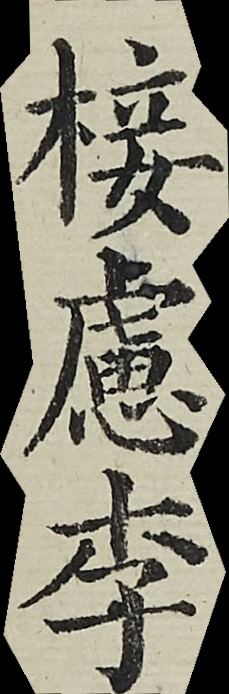椄慮李
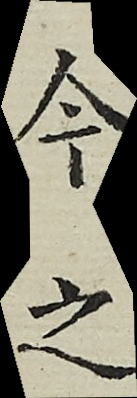今之
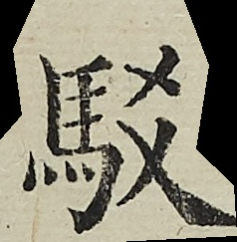駁
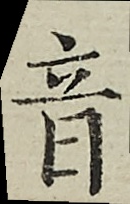音
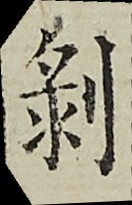剝
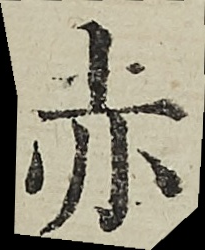赤
